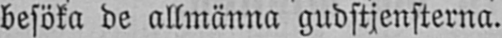besöka de allmänna gudstjensterna.
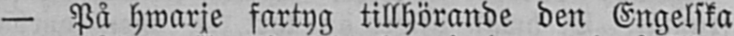— På hwarje fartyg tillhörande den Engelska
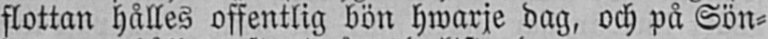flottan hålles offentlig bön hwarje dag, och på Sön-
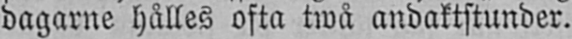dagarne hålles ofta twå andaktstunder.
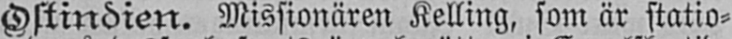Ostindien. Missionären Kelling, som är statio-
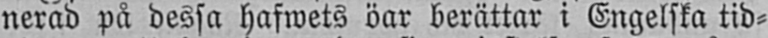nerad på dessa hafwets öar berättar i Engelska tid-
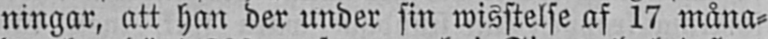ningar, att han der under sin wisstelse af 17 måna-
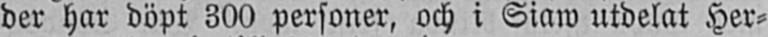der har döpt 300 personer, och i Siaw utdelat Her-
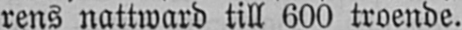rens nattward till 600 troende.
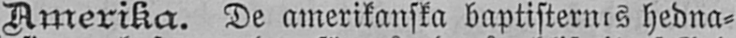Amerika. De amerikanska baptisternes hedna-
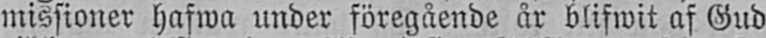missioner hafwa under föregående år blifwit af Gud
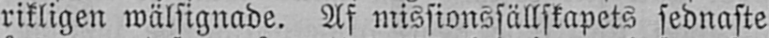rikligen wälsignade. Af missionssällskapets sednaste
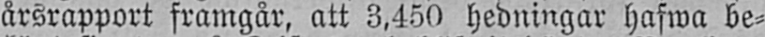årsrapport framgår, att 3,450 hedningar hafwa be-
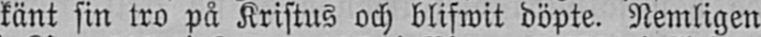känt sin tro på Kristus och blifwit döpte. Nemligen
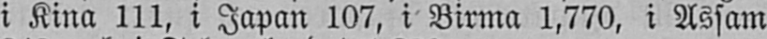i Kina 111, i Japan 107, i Birma 1,770, i Assam
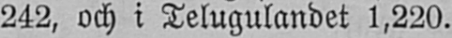242, och i Telugulandet 1,220.
